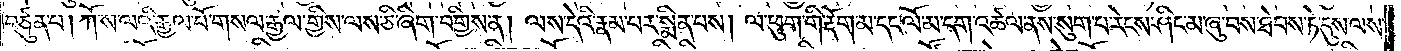བཙུན་པ། ཀོ་ས་ལའི་རྒྱལ་པོ་གསལ་རྒྱལ་གྱིས་ལས་ཅི་ཞིག་བགྱིས་ན། ལས་དེའི་རྣམ་པར་སྨིན་པས། ལ་ཕུག་གི་རྡོག་མ་དང་ལོ་མ་དག་འཚལ་ནས་སུག་པ་རེངས་ཤིང་མ་ཞུ་བས་ཐེབས་ཏེ་དུས་ལས་
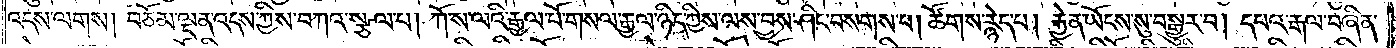འདས་ལགས། བཅོམ་ལྡན་འདས་ཀྱིས་བཀའ་སྩལ་པ། ཀོ་ས་ལའི་རྒྱལ་པོ་གསལ་རྒྱལ་ཉིད་ཀྱིས་ལས་བྱས་ཤིང་བསགས་པ། ཚོགས་རྙེད་པ། རྐྱེན་ཡོངས་སུ་བསྒྱུར་བ། དཔའ་རྒལ་བཞིན་
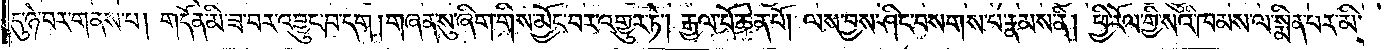དུ་ཉེ་བར་གནས་པ། གདོན་མི་ཟ་བར་འབྱུང་བ་དག །གཞན་སུ་ཞིག་གིས་མྱོང་བར་འགྱུར་ཏེ། རྒྱལ་པོ་ཆེན་པོ། ལས་བྱས་ཤིང་བསགས་པ་རྣམས་ནི། ཕྱི་རོལ་གྱི་སའི་ཁམས་ལ་སྨིན་པར་མི་
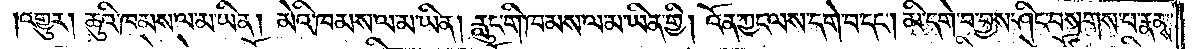འགྱུར། ཆུའི་ཁམས་ལ་མ་ཡིན། མེའི་ཁམས་ལ་མ་ཡིན། རླུང་གི་ཁམས་ལ་མ་ཡིན་གྱི། འོན་ཀྱང་ལས་དགེ་བ་དང༌། མི་དགེ་བ་བྱས་ཤིང་བསགས་པ་རྣམས་
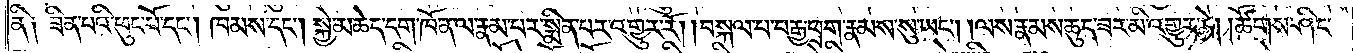ནི༑ ཟིན་པའི་ཕུང་པོ་དང༌། ཁམས་དང༌། སྐྱེ་མཆེད་དག་ཁོ་ན་ལ་རྣམ་པར་སྨིན་པར་འགྱུར་རོ། །བསྐལ་པ་བརྒྱ་ཕྲག་རྣམས་སུ་ཡང༌། །ལས་རྣམས་ཆུད་ཟར་མི་འགྱུར་ཏེ། །ཚོགས་ཤིང་
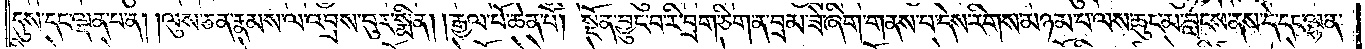དུས་དང་ལྡན་པ་ན། ལུས་ཅན་རྣམས་ལ་འབྲས་བུར་སྨིན། །རྒྱལ་པོ་ཆེན་པོ། སྔོན་བྱུང་བ་རི་བྲག་ཅིག་ན་བྲམ་ཟེ་ཞིག་གནས་པ་དེས་རིགས་མཉམ་པ་ལས་ཆུང་མ་བླངས་ནས་དེ་དང་ལྷན་
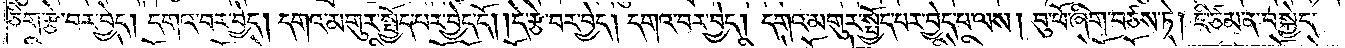ཅིག་རྩེ་བར་བྱེད། དགའ་བར་བྱེད། དགའ་མགུར་སྤྱོད་པར་བྱེད་དོ། །དེ་རྩེ་བར་བྱེད། དགའ་བར་བྱེད། དགའ་མགུར་སྤྱོད་པར་བྱེད་པ་ལས། བུ་ཕོ་ཞིག་བཙས་ཏེ། ཇི་ཙམ་ན་བསྐྱེད་
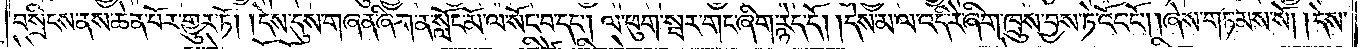བསྲིངས་ནས་ཆེན་པོར་གྱུར་ཏོ། །དེས་དུས་གཞན་ཞིག་ན་སློང་མོ་ལ་སོང་བ་དང༌། ལ་ཕུག་སྦར་གང་ཞིག་རྙེད་དོ། །དེས་མ་ལ་འདི་རེ་ཞིག་ཁྲུས་བྱས་ཏེ་འོང་ངོ༌། །ཞེས་གཏམས་སོ། །དེས་
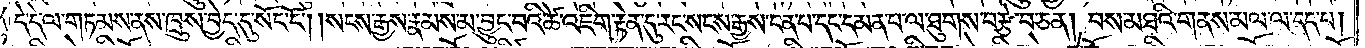དེ་དེ་ལ་གཏམས་ནས་ཁྲུས་བྱེད་དུ་སོང་ངོ༌། །སངས་རྒྱས་རྣམས་མ་བྱུང་བའི་ཚེ་འཇིག་རྟེན་དུ་རང་སངས་རྒྱས་ངན་པ་དང་དམན་པ་ལ་ཐུགས་བརྩེ་བ་ཅན། བས་མཐའི་གནས་མལ་ལ་དད་པ།
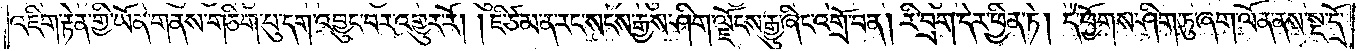འཇིག་རྟེན་གྱི་ཡོན་གནས་གཅིག་པུ་དག་འབྱུང་བར་འགྱུར་རོ། །ཇི་ཙམ་ན་རང་སངས་རྒྱས་ཤིག་ལྗོངས་རྒྱུ་ཞིང་འགྲོ་བ་ན། རི་བྲག་དེར་ཕྱིན་ཏེ། དེ་ཕྱོགས་ཤིག་ཏུ་ཞག་ལོན་ནས་སྔ་དྲོ་
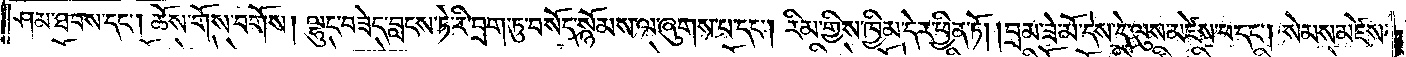ཤམ་ཐབས་དང༌། ཆོས་གོས་བགོས། ལྷུང་བཟེད་བླངས་ཏེ་རི་བྲག་ཏུ་བསོད་སྙོམས་ལ་ཞུགས་པ་དང༌། རིམ་གྱིས་ཁྱིམ་དེར་ཕྱིན་ཏོ། །བྲམ་ཟེ་མོ་དེས་དེ་ལུས་མཛེས་པ་དང༌། སེམས་མཛེས་
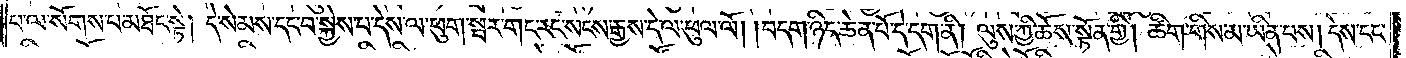པ་ལ་སོགས་པ་མཐོང་སྟེ། དེ་སེམས་དང་བ་སྐྱེས་པ་དེས་ལ་ཕུག་སྦར་གང་རང་སངས་རྒྱས་དེ་ལ་ཕུལ་ལོ། །བདག་ཉིད་ཆེན་པོ་དེ་དག་ནི། ལུས་ཀྱི་ཆོས་སྟོན་གྱི། ཚིག་གིས་མ་ཡིན་པས། དེས་དང་
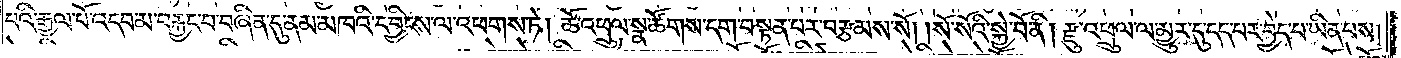པའི་རྒྱལ་པོ་འདབ་མ་བརྐྱང་བ་བཞིན་དུ་ནམ་མཁའི་དབྱིངས་ལ་འཕགས་ཏེ། ཆོ་འཕྲུལ་སྣ་ཚོགས་དག་བསྟན་པར་བརྩམས་སོ། །སོ་སོའི་སྐྱེ་བོ་ནི། རྫུ་འཕྲུལ་ལ་མྱུར་དུ་དད་པར་བྱེད་པ་ཡིན་པས།
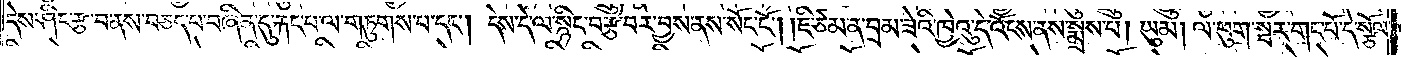དེས་ཤིང་རྩ་བ་ནས་བཅད་པ་བཞིན་དུ་རྐང་པ་ལ་གཏུགས་པ་དང༌། དེས་དེ་ལ་སྙིང་བརྩེ་བར་བྱས་ནས་སོང་ངོ༌། །ཇི་ཙམ་ན་བྲམ་ཟེའི་ཁྱེའུ་དེ་འོངས་ནས་སྨྲས་པ། ཡུམ། ལ་ཕུག་སྦར་གང་པོ་དེ་སྩོལ་
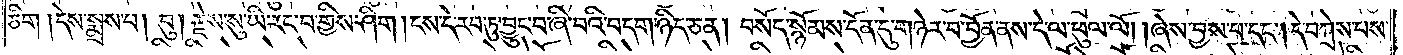ཅིག །དེས་སྨྲས་པ། བུ། རྗེས་སུ་ཡི་རང་བ་གྱིས་ཤིག །ངས་དེ་རབ་ཏུ་བྱུང་བ་ཞི་བའི་བདག་ཉིད་ཅན། བསོད་སྙོམས་དོན་དུ་གཉེར་བ་བྱོན་ནས་དེ་ལ་ཕུལ་ལོ། །ཞེས་བྱས་པ་དང༌། དེ་བཀྲེས་པས་
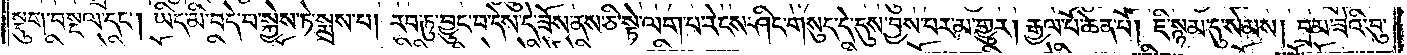སྡུག་བསྔལ་དང༌། ཡིད་མི་བདེ་བ་སྐྱེས་ཏེ་སྨྲས་པ། རབ་ཏུ་བྱུང་བ་དེས་དེ་ཟོས་ནས་ཅི་སྟེ་ལག་པ་རེངས་ཤིང་གསུད་དེ་དུས་བྱས་པར་མ་གྱུར། རྒྱལ་པོ་ཆེན་པོ། ཇི་སྙམ་དུ་སེམས། བྲམ་ཟེའི་བུ་
